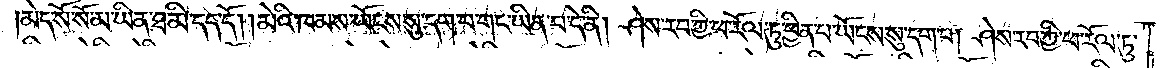མེད་སོ་སོ་མ་ཡིན་ཐ་མི་དད་དོ། །མེའི་ཁམས་ཡོངས་སུ་དག་པ་གང་ཡིན་པ་དེ་ནི། ཤེས་རབ་ཀྱི་ཕ་རོལ་ཏུ་ཕྱིན་པ་ཡོངས་སུ་དག་པ། ཤེས་རབ་ཀྱི་ཕ་རོལ་ཏུ་
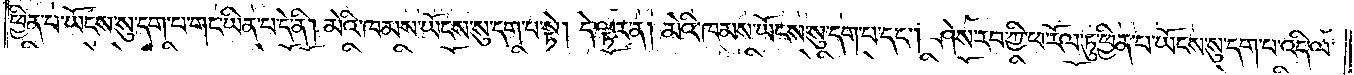ཕྱིན་པ་ཡོངས་སུ་དག་པ་གང་ཡིན་པ་དེ་ནི། མེའི་ཁམས་ཡོངས་སུ་དག་པ་སྟེ། དེ་ལྟར་ན། མེའི་ཁམས་ཡོངས་སུ་དག་པ་དང༌། ཤེས་རབ་ཀྱི་ཕ་རོལ་ཏུ་ཕྱིན་པ་ཡོངས་སུ་དག་པ་འདི་ལ་
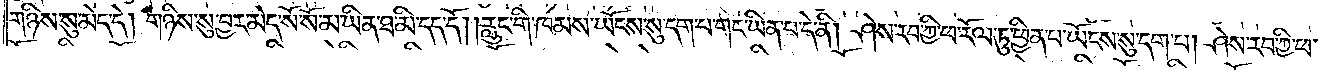གཉིས་སུ་མེད་དེ། གཉིས་སུ་བྱར་མེད་སོ་སོ་མ་ཡིན་ཐ་མི་དད་དོ། །རླུང་གི་ཁམས་ཡོངས་སུ་དག་པ་གང་ཡིན་པ་དེ་ནི། ཤེས་རབ་ཀྱི་ཕ་རོལ་ཏུ་ཕྱིན་པ་ཡོངས་སུ་དག་པ། ཤེས་རབ་ཀྱི་ཕ་
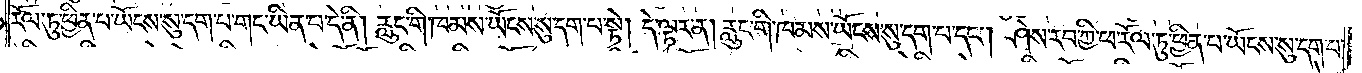རོལ་ཏུ་ཕྱིན་པ་ཡོངས་སུ་དག་པ་གང་ཡིན་པ་དེ་ནི། རླུང་གི་ཁམས་ཡོངས་སུ་དག་པ་སྟེ། དེ་ལྟར་ན། རླུང་གི་ཁམས་ཡོངས་སུ་དག་པ་དང༌། ཤེས་རབ་ཀྱི་ཕ་རོལ་ཏུ་ཕྱིན་པ་ཡོངས་སུ་དག་པ་
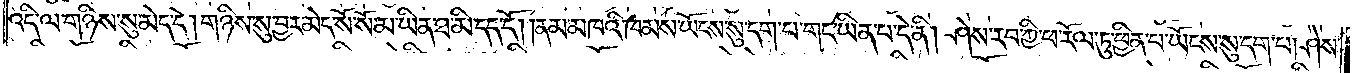འདི་ལ་གཉིས་སུ་མེད་དེ། གཉིས་སུ་བྱར་མེད་སོ་སོ་མ་ཡིན་ཐ་མི་དད་དོ། །ནམ་མཁའི་ཁམས་ཡོངས་སུ་དག་པ་གང་ཡིན་པ་དེ་ནི། ཤེས་རབ་ཀྱི་ཕ་རོལ་ཏུ་ཕྱིན་པ་ཡོངས་སུ་དག་པ། ཤེས་
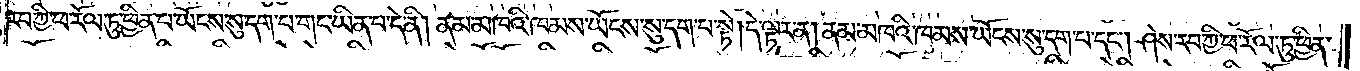རབ་ཀྱི་ཕ་རོལ་ཏུ་ཕྱིན་པ་ཡོངས་སུ་དག་པ་གང་ཡིན་པ་དེ་ནི། ནམ་མཁའི་ཁམས་ཡོངས་སུ་དག་པ་སྟེ། དེ་ལྟར་ན། ནམ་མཁའི་ཁམས་ཡོངས་སུ་དག་པ་དང༌། ཤེས་རབ་ཀྱི་ཕ་རོལ་ཏུ་ཕྱིན་
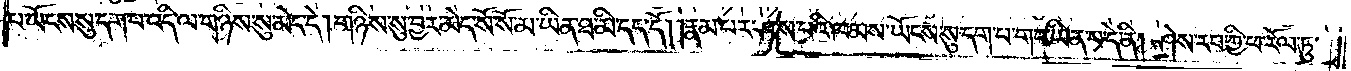པ་ཡོངས་སུ་དག་པ་འདི་ལ་གཉིས་སུ་མེད་དེ། གཉིས་སུ་བྱར་མེད་སོ་སོ་མ་ཡིན་ཐ་མི་དད་དོ། །རྣམ་པར་ཤེས་པའི་ཁམས་ཡོངས་སུ་དག་པ་གང་ཡིན་པ་དེ་ནི། ཤེས་རབ་ཀྱི་ཕ་རོལ་ཏུ་
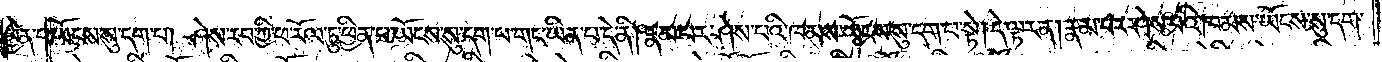ཕྱིན་པ་ཡོངས་སུ་དག་པ། ཤེས་རབ་ཀྱི་ཕ་རོལ་ཏུ་ཕྱིན་པ་ཡོངས་སུ་དག་པ་གང་ཡིན་པ་དེ་ནི། རྣམ་པར་ཤེས་པའི་ཁམས་ཡོངས་སུ་དག་པ་སྟེ། དེ་ལྟར་ན། རྣམ་པར་ཤེས་པའི་ཁམས་ཡོངས་སུ་དག་
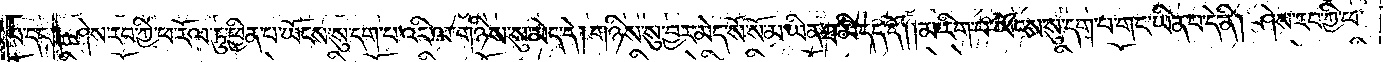པ་དང༌། ཤེས་རབ་ཀྱི་ཕ་རོལ་ཏུ་ཕྱིན་པ་ཡོངས་སུ་དག་པ་འདི་ལ་གཉིས་སུ་མེད་དེ། གཉིས་སུ་བྱར་མེད་སོ་སོ་མ་ཡིན་ཐ་མི་དད་དོ། །མ་རིག་པ་ཡོངས་སུ་དག་པ་གང་ཡིན་པ་དེ་ནི། ཤེས་རབ་ཀྱི་ཕ་
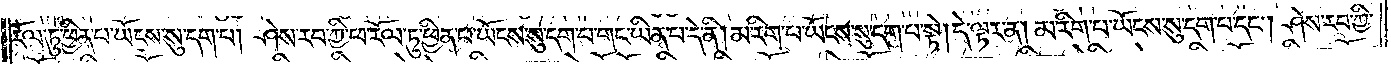རོལ་ཏུ་ཕྱིན་པ་ཡོངས་སུ་དག་པ། ཤེས་རབ་ཀྱི་ཕ་རོལ་ཏུ་ཕྱིན་པ་ཡོངས་སུ་དག་པ་གང་ཡིན་པ་དེ་ནི། མ་རིག་པ་ཡོངས་སུ་དག་པ་སྟེ། དེ་ལྟར་ན། མ་རིག་པ་ཡོངས་སུ་དག་པ་དང༌། ཤེས་རབ་ཀྱི་
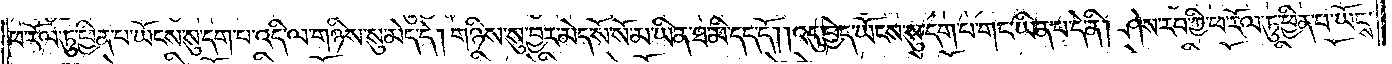ཕ་རོལ་ཏུ་ཕྱིན་པ་ཡོངས་སུ་དག་པ་འདི་ལ་གཉིས་སུ་མེད་དེ། གཉིས་སུ་བྱར་མེད་སོ་སོ་མ་ཡིན་ཐ་མི་དད་དོ། །འདུ་བྱེད་ཡོངས་སུ་དག་པ་གང་ཡིན་པ་དེ་ནི། ཤེས་རབ་ཀྱི་ཕ་རོལ་ཏུ་ཕྱིན་པ་ཡོངས་
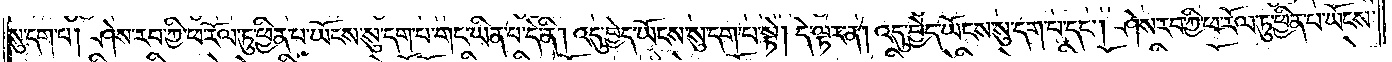སུ་དག་པ། ཤེས་རབ་ཀྱི་ཕ་རོལ་ཏུ་ཕྱིན་པ་ཡོངས་སུ་དག་པ་གང་ཡིན་པ་དེ་ནི། འདུ་བྱེད་ཡོངས་སུ་དག་པ་སྟེ། དེ་ལྟར་ན། འདུ་བྱེད་ཡོངས་སུ་དག་པ་དང༌། ཤེས་རབ་ཀྱི་ཕ་རོལ་ཏུ་ཕྱིན་པ་ཡོངས་
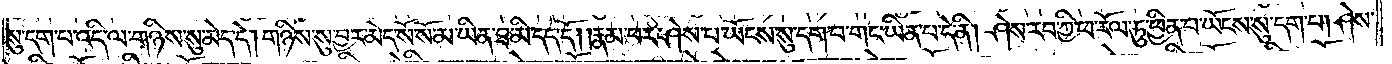སུ་དག་པ་འདི་ལ་གཉིས་སུ་མེད་དེ། གཉིས་སུ་བྱར་མེད་སོ་སོ་མ་ཡིན་ཐ་མི་དད་དོ། །རྣམ་པར་ཤེས་པ་ཡོངས་སུ་དག་པ་གང་ཡིན་པ་དེ་ནི། ཤེས་རབ་ཀྱི་ཕ་རོལ་ཏུ་ཕྱིན་པ་ཡོངས་སུ་དག་པ། ཤེས་
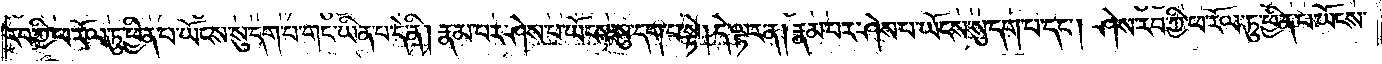རབ་ཀྱི་ཕ་རོལ་ཏུ་ཕྱིན་པ་ཡོངས་སུ་དག་པ་གང་ཡིན་པ་དེ་ནི། རྣམ་པར་ཤེས་པ་ཡོངས་སུ་དག་པ་སྟེ། དེ་ལྟར་ན། རྣམ་པར་ཤེས་པ་ཡོངས་སུ་དག་པ་དང༌། ཤེས་རབ་ཀྱི་ཕ་རོལ་ཏུ་ཕྱིན་པ་ཡོངས་
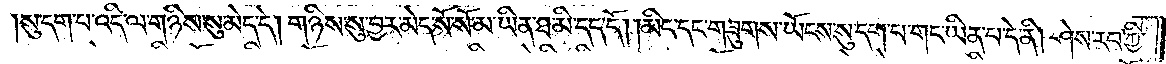སུ་དག་པ་འདི་ལ་གཉིས་སུ་མེད་དེ། གཉིས་སུ་བྱར་མེད་སོ་སོ་མ་ཡིན་ཐ་མི་དད་དོ། །མིང་དང་གཟུགས་ཡོངས་སུ་དག་པ་གང་ཡིན་པ་དེ་ནི། ཤེས་རབ་ཀྱི་
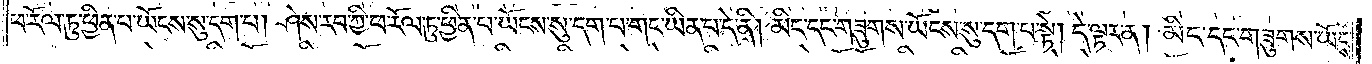ཕ་རོལ་ཏུ་ཕྱིན་པ་ཡོངས་སུ་དག་པ། ཤེས་རབ་ཀྱི་ཕ་རོལ་ཏུ་ཕྱིན་པ་ཡོངས་སུ་དག་པ་གང་ཡིན་པ་དེ་ནི། མིང་དང་གཟུགས་ཡོངས་སུ་དག་པ་སྟེ། དེ་ལྟར་ན། མིང་དང་གཟུགས་ཡོངས་
